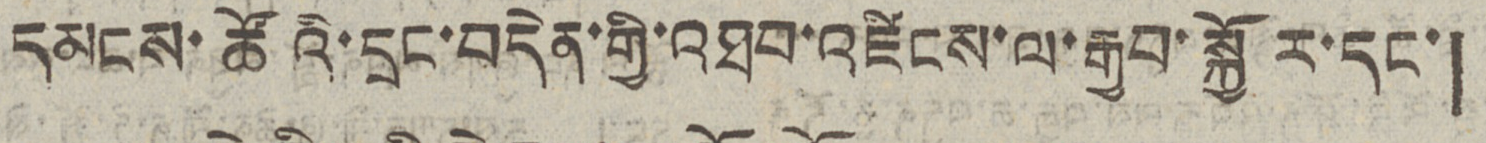དམངས་ཚོའི་དྲང་བདེན་གྱི་འཐབ་འཛིངས་ལ་རྒྱབ་སྐྱོར་དང་།
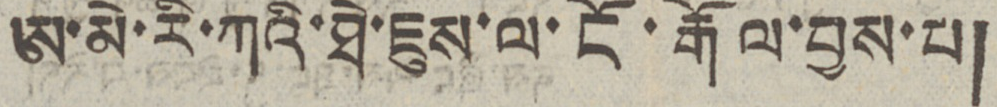ཨ་མེ་རི་ཀའི་ཐེ་ཇུས་ལ་ངོ་རྒོལ་བྱས་པ།
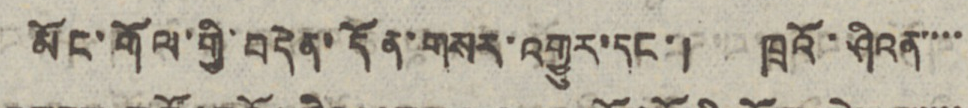མོང་གོལ་གྱི་བདེན་དོན་གསར་འགྱུར་དང་། ཁྲའོ་ཤིའན་་་་
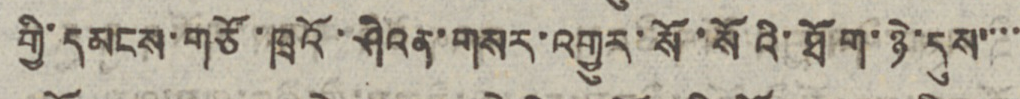གྱི་དམངས་གཙོ་ཁྲའོ་ཤིའན་གསར་འགྱུར་སོ་སོའི་ཐོག་ཉེ་དུས་་་་
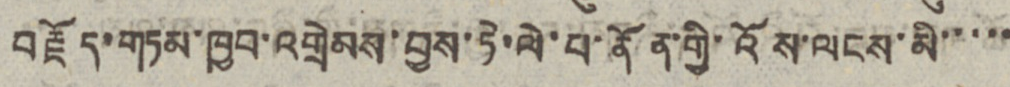བརྗོད་གཏམ་ཁྱབ་འགྲེམས་བྱས་ཏེ་ལེ་པ་ནོན་གྱི་འོས་ལངས་མི་་་་་
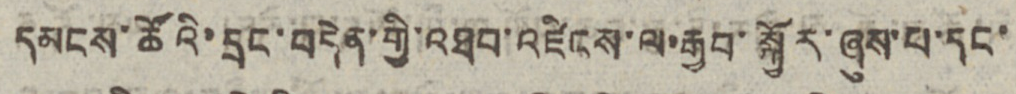དམངས་ཚོའི་དྲང་བདེན་གྱི་འཐབ་འཛིངས་ལ་རྒྱབ་སྐྱོར་ཞུས་པ་དང་
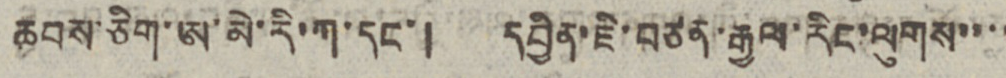ཆབས་ཅིག་ཨ་མེ་རི་ཀ་དང་། དབྱིན་ཇི་བཙན་རྒྱལ་རིང་ལུགས་་་་
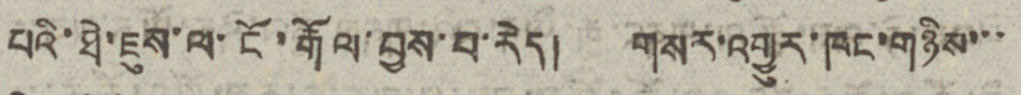པའི་ཐེ་ཇུས་ལ་ངོ་རྒོལ་བྱས་པ་རེད། གསར་འགྱུར་ཁང་གཉིས་་་
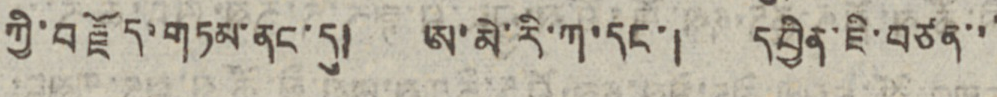ཀྱི་བརྗོད་གཏམ་ནང་དུ། ཨ་མེ་རི་ཀ་དང་། དབྱིན་ཇི་བཙན་་་
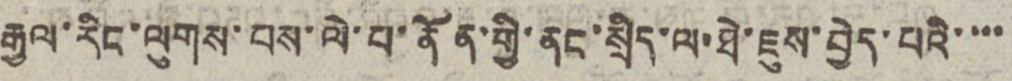རྒྱལ་རིང་ལུགས་པས་ལེ་པ་ནོན་གྱི་ནང་སྲིད་ལ་ཐེ་ཇུས་བྱེད་པའི་་་་
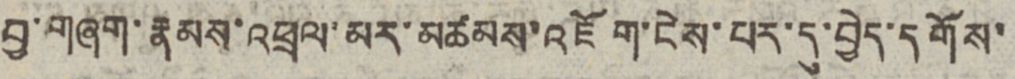བྱ་གཞག་རྣམ་འཕྲལ་མར་མཚམས་འཇོག་ངེས་པར་དུ་བྱེད་དགོས་
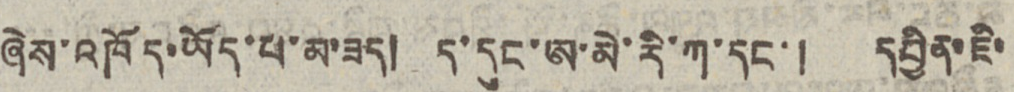ཞེས་འཁོད་ཡོད་པ་མ་ཟད། ད་དུང་ཨ་མེ་རི་ཀ་དང་། དབྱིན་ཇི་
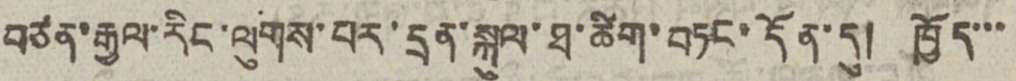བཙན་རྒྱལ་རིང་ལུགས་པར་དྲན་སྐུལ་ཐ་ཚིག་བཏང་དོན་དུ། ཁྱོད་་་
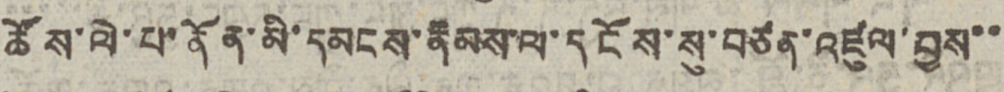ཚོས་ལེ་པ་ནོན་མི་དམངས་རྣམས་དངོས་སུ་བཙན་འཛུལ་བྱས་་
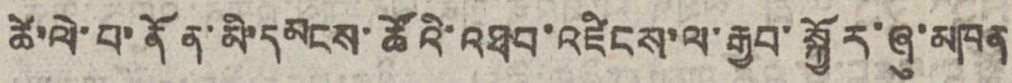ཚེ་ལེ་པ་ནོན་མི་དམངས་ཚོའི་འཐབ་འཛིངས་ལ་རྒྱབ་སྐྱོར་ཞུ་མཁན
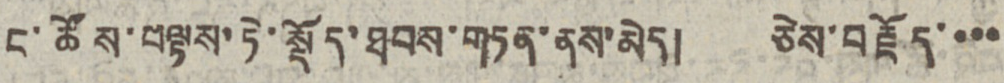ང་ཚོས་བལྟས་ཏེ་སྡོད་ཐབས་གཏན་ནས་མེད། ཅེས་བརྗོད་་་་
